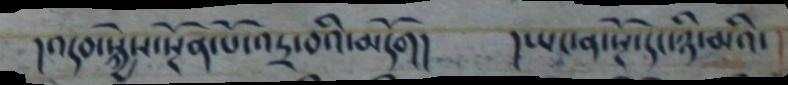།འདབ་སྐྱེས་སྔོན་པོ་འདྲ་བའི་མདོག། །ཡང་ན་སྔོ་དང་ཉི་མའི་
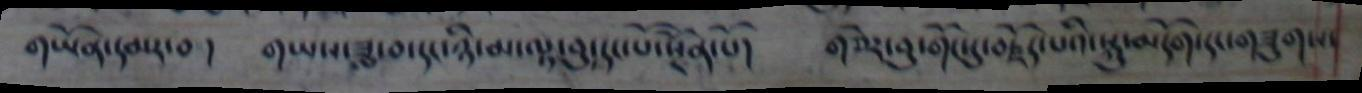གཡོན་དམར་བ།  གཡས་ཟླ་བ་དང་ཉི་མ་ལྟ་བུ་དང་པོ་སྔོན་པོ།  གཅེར་བུ་གོང་དུ་བརྗོད་པའི་སྐུ་མདོག་དང་གཟུགས་
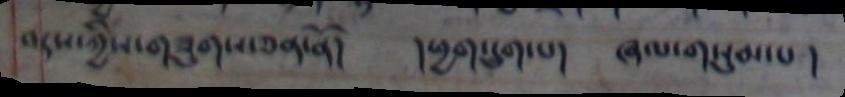བདས་ཀྱིས་གཟུགས་ཅན་ནོ།  །ཕྱག་དྲུག་པ།  ཞལ་གསུམ་པ།
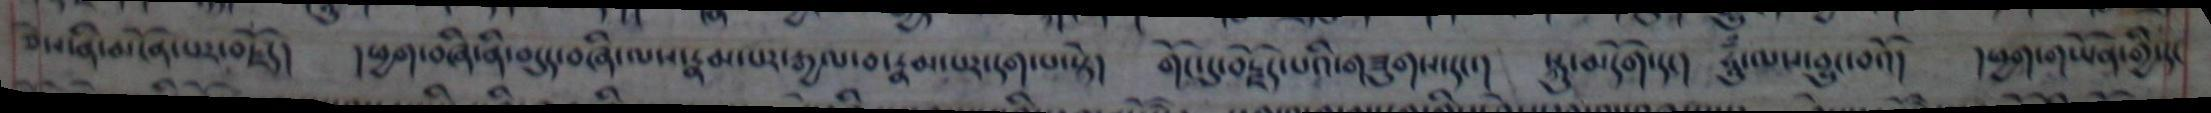ཅེསནི་མངོན་པར་བརྗོད།  ཕྱག་བཞི་ནི་བདུད་བཞི་ལས་རྣམ་པར་རྒྱལ་བ་རྣམ་པར་དག་པ་སྟེ།  གོང་དུ་བརྗོད་པའི་གཟུགས་དང་།  སྐུ་མདོག་དང།  ཧཱུཾ་ལས་བྱུང་བའོ།  །ཕྱག་གཡོན་གྱི་དང
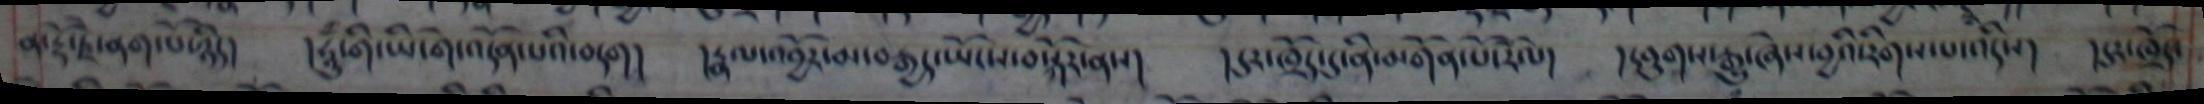ན་རྡོ་རྗེ་ནག་པོ་ཉིད།   །ཧཱུཾ་གི་ཡི་གེ་འདོན་པའི་བདག།  །རྣལ་འབྱོར་མ་བརྒྱ་ཡོངས་བསྐོར་ནས།  །དུར་ཁྲོད་དུ་ནི་མགོན་པོ་རོལ།  །དབུགས་རྒྱུ་ཞེས་བྱའི་རིགས་པ་འདིས།  །དུར་ཁྲོད་
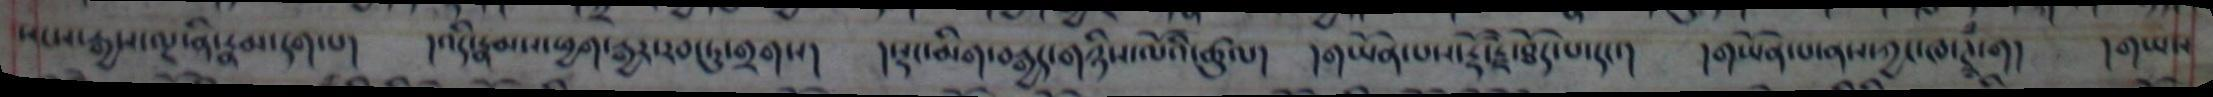སངས་རྒྱས་ལྔ་ནི་རྣམ་དག་པ། །འདི་རྣམས་ཕྱག་རྒྱར་རབ་ཏུ་གྲགས། །སྡང་མིག་བརྒྱད་གཉིས་ལོའི་ཚུལ། །གཡོན་པས་རྡོ་རྗེ་ཐོད་པ་དང་། །གཡོན་པ་ནས་ཀྱང་ཁ་ཊཾ་ག། །གཡས
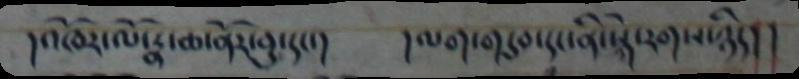།འཁོར་ལོ་རྣ་ཆ་ནོར་བུ་དང་། །ལག་གདུབ་དང་ནི་སྐེ་རགས་ཉིད།།
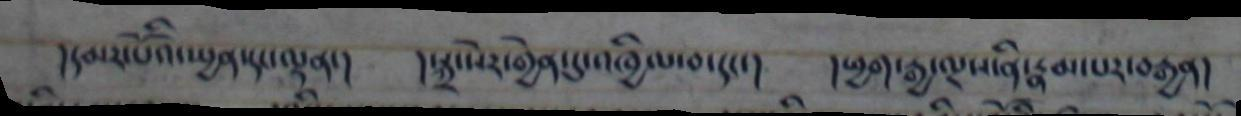།དམར་པོའི་སྤྱན་དང་ལྡན་། །སྐྲ་སེར་གྱེན་དུ་འཁྱིལ་བ་དང་། །ཕྱག་རྒྱ་ལྔས་ནི་རྣམ་པར་བརྒྱན།
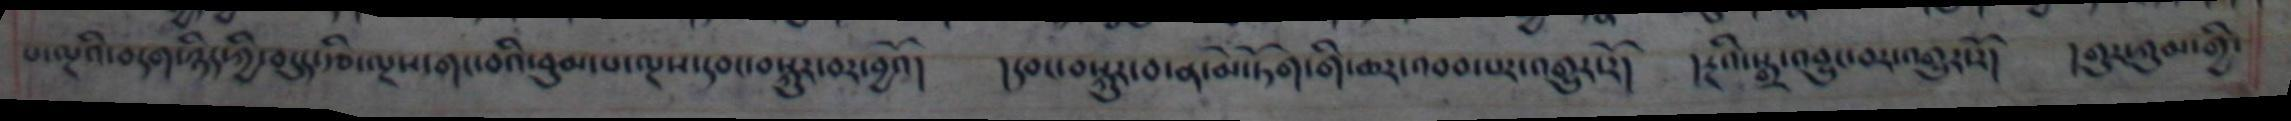པ་ལྔའི་བདག་ཉིད་བདུད་རྩི་ལྔས་གང་བའི་བུམ་པ་ལྔས་དབང་བསྐུར་བར་བྱའོ། །དབང་བསྐུར་བ་ན་མེ་ཏོག་གི་ཆར་འབབ་པར་འགྱུར་རོ། །རྔའི་སྒྲ་འབྱུང་བར་འགྱུར་རོ། །གུར་ཀུམ་གྱི་
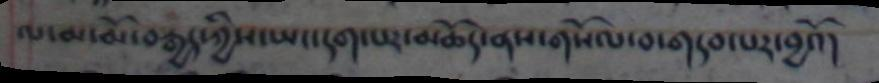ལ་མ་མོ་བརྒྱད་ཀྱིས་ཡང་དག་པར་མཆོད་ནས་གསོལ་བ་གདབ་པར་བྱའོ།
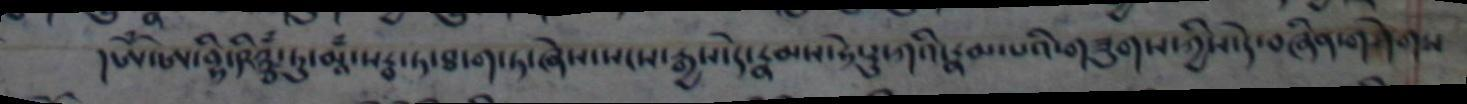།ཨོཾ་ཨ་བྷི་ཥིཉྩཾ་ཏུ་མཱཾ་སརྦ་ཏ་ཐ་ག་ཐ་ཞེས་སངས་རྒྱས་དེ་རྣམས་ཧེ་རུ་ཀའི་རྣམ་པའི་གཟུགས་ཀྱིས་དེ་བཞིན་གཤེགས
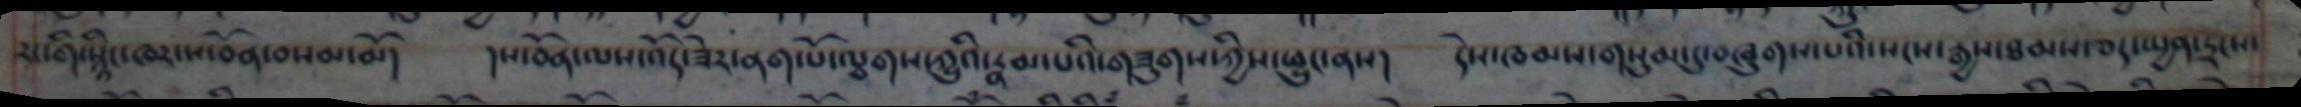རང་གི་སྙིང་ཁར་ས་བོན་བསམ་མོ། །ས་བོན་ལས་འོད་ཟེར་ནག་པོ་ལྕགས་ཀྱུའི་རྣམ་པའི་གཟུགས་ཀྱིས་ཕྱུང་ནས། དེས་ཁམས་གསུམ་དུ་བཞུགས་པའི་སངས་རྒྱས་ཐམས་ཅད་སྤྱན་དྲངས་
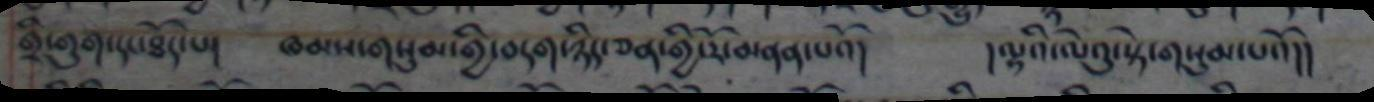གྲི་གུག་དང་ཐོད་པ། ཁམས་གསུམ་གྱི་བདག་ཉིད་ཅན་གྱི་རོ་མནན་པའོ། །ལྷའི་ལེའུ་སྟེ་གསུམ་པའོ།།
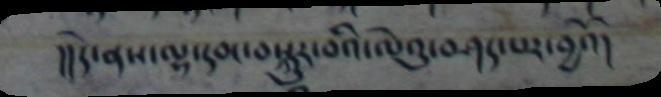།།དེ་ནས་ལྷ་དབང་བསྐུར་བའི་ལེའུ་བཤད་པར་བྱའོ།
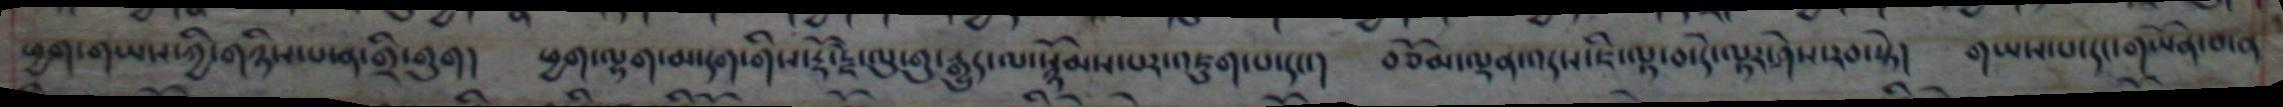ཕྱག་གཡས་ཀྱི་གཉིས་པ་ན་གྲི་གུག། ཕྱག་ལྷག་མ་དག་གིས་རྡོ་རྗེ་ལུ་གུ་རྒྱུད་ལ་སྙོམས་པར་འཇུག་པ་དང་། བཅོམ་ལྡན་འདས་ཇི་ལྟ་བ་དེ་ལྟར་ཤེས་རབ་སྟེ། གཡས་པ་དང་གཡོན་བ་ན
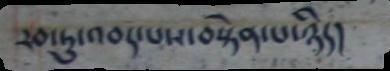རབ་ཏུ་འབད་པས་བསྟེན་པ་ཉིད།
